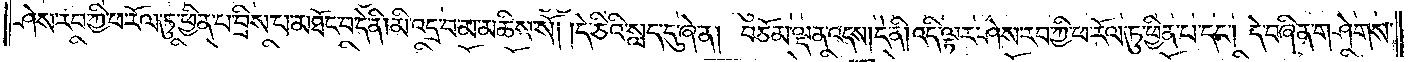ཤེས་རབ་ཀྱི་ཕ་རོལ་ཏུ་ཕྱིན་པ་བྲིས་པ་མཐོང་བ་དེ་ནི། མི་འདྲ་བ་མ་མཆིས་སོ། །དེ་ཅིའི་སླད་དུ་ཞེ་ན། བཅོམ་ལྡན་འདས། དེ་ནི། འདི་ལྟར་ཤེས་རབ་ཀྱི་ཕ་རོལ་ཏུ་ཕྱིན་པ་དང༌། དེ་བཞིན་གཤེགས་
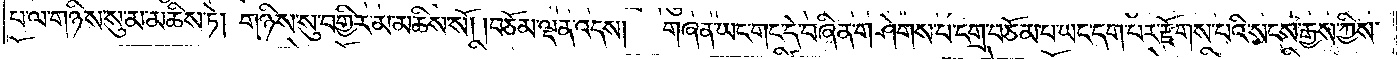པ་ལ་གཉིས་སུ་མ་མཆིས་ཏེ། གཉིས་སུ་བགྱིར་མ་མཆིས་སོ། །བཅོམ་ལྡན་འདས། གཞན་ཡང་གང་དེ་བཞིན་གཤེགས་པ་དགྲ་བཅོམ་པ་ཡང་དག་པར་རྫོགས་པའི་སངས་རྒྱས་ཀྱིས་
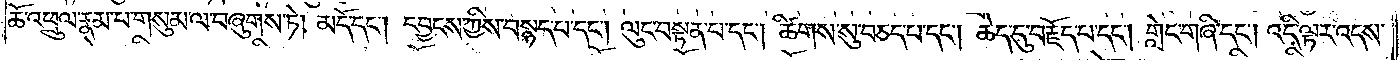ཆོ་འཕྲུལ་རྣམ་པ་གསུམ་ལ་བཞུགས་ཏེ། མདོ་དང༌། དབྱངས་ཀྱིས་བསྙད་པ་དང༌། ལུང་བསྟན་པ་དང༌། ཚིགས་སུ་བཅད་པ་དང༌། ཆེད་དུ་བརྗོད་པ་དང༌། གླེང་གཞི་དང༌། འདི་ལྟར་འདས་
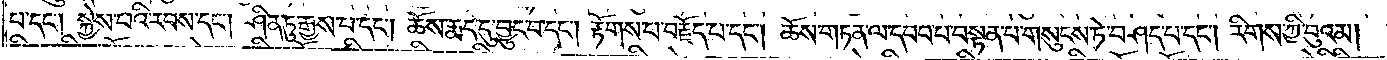པ་དང༌། སྐྱེས་པའི་རབས་དང༌། ཤིན་ཏུ་རྒྱས་པ་དང༌། ཆོས་རྨད་དུ་བྱུང་བ་དང༌། རྟོགས་པ་བརྗོད་པ་དང༌། ཆོས་གཏན་ལ་དབབ་པ་བསྟན་པ་གསུངས་ཏེ་བཤད་པ་དང༌། རིགས་ཀྱི་བུའམ།
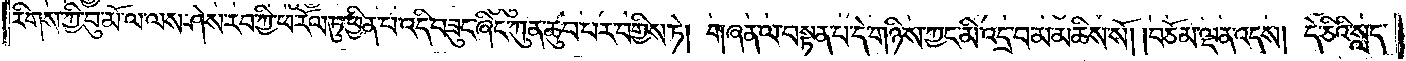རིགས་ཀྱི་བུ་མོ་ལ་ལས་ཤེས་རབ་ཀྱི་ཕ་རོལ་ཏུ་ཕྱིན་པ་འདི་བཟུང་ཞིང་ཀུན་ཆུབ་པར་བགྱིས་ཏེ། གཞན་ལ་བསྟན་པ་དེ་གཉིས་ཀྱང་མི་འདྲ་བ་མ་མཆིས་སོ། །བཅོམ་ལྡན་འདས། དེ་ཅིའི་སླད་
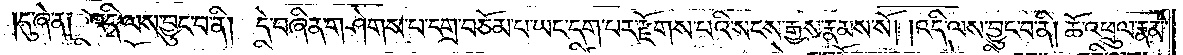དུ་ཞེ་ན། འདི་ལས་བྱུང་བ་ནི། དེ་བཞིན་གཤེགས་པ་དགྲ་བཅོམ་པ་ཡང་དག་པར་རྫོགས་པའི་སངས་རྒྱས་རྣམས་སོ། །འདི་ལས་བྱུང་བ་ནི། ཆོ་འཕྲུལ་རྣམ་
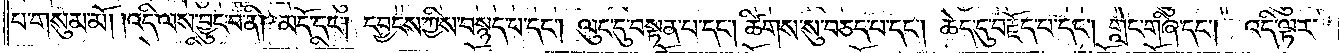པ་གསུམ་མོ། །འདི་ལས་བྱུང་བ་ནི། མདོ་དང༌། དབྱངས་ཀྱིས་བསྙད་པ་དང༌། ལུང་དུ་བསྟན་པ་དང༌། ཚིགས་སུ་བཅད་པ་དང༌། ཆེད་དུ་བརྗོད་པ་དང༌། གླེང་གཞི་དང༌། འདི་ལྟར་
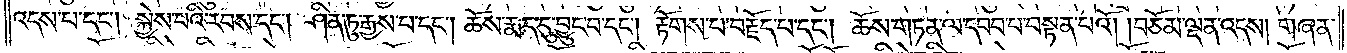འདས་པ་དང༌། སྐྱེས་པའི་རབས་དང༌། ཤིན་ཏུ་རྒྱས་པ་དང༌། ཆོས་རྨད་དུ་བྱུང་བ་དང༌། རྟོགས་པ་བརྗོད་པ་དང༌། ཆོས་གཏན་ལ་དབབ་པ་བསྟན་པའོ། །བཅོམ་ལྡན་འདས། གཞན་
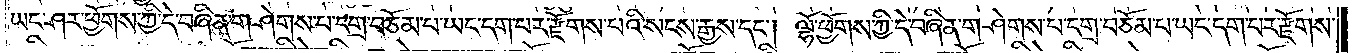ཡང་ཤར་ཕྱོགས་ཀྱི་དེ་བཞིན་གཤེགས་པ་དགྲ་བཅོམ་པ་ཡང་དག་པར་རྫོགས་པའི་སངས་རྒྱས་དང༌། ལྷོ་ཕྱོགས་ཀྱི་དེ་བཞིན་གཤེགས་པ་དགྲ་བཅོམ་པ་ཡང་དག་པར་རྫོགས་
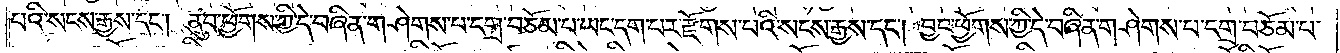པའི་སངས་རྒྱས་དང༌། ནུབ་ཕྱོགས་ཀྱི་དེ་བཞིན་གཤེགས་པ་དགྲ་བཅོམ་པ་ཡང་དག་པར་རྫོགས་པའི་སངས་རྒྱས་དང༌། བྱང་ཕྱོགས་ཀྱི་དེ་བཞིན་གཤེགས་པ་དགྲ་བཅོམ་པ་
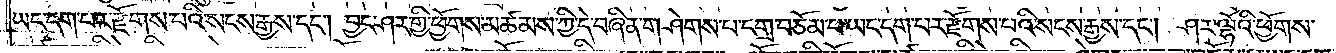ཡང་དག་པར་རྫོགས་པའི་སངས་རྒྱས་དང༌། བྱང་ཤར་གྱི་ཕྱོགས་མཚམས་ཀྱི་དེ་བཞིན་གཤེགས་པ་དགྲ་བཅོམ་པ་ཡང་དག་པར་རྫོགས་པའི་སངས་རྒྱས་དང༌། ཤར་ལྷོའི་ཕྱོགས་
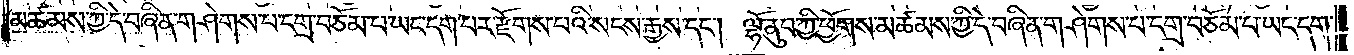མཚམས་ཀྱི་དེ་བཞིན་གཤེགས་པ་དགྲ་བཅོམ་པ་ཡང་དག་པར་རྫོགས་པའི་སངས་རྒྱས་དང༌། ལྷོ་ནུབ་ཀྱི་ཕྱོགས་མཚམས་ཀྱི་དེ་བཞིན་གཤེགས་པ་དགྲ་བཅོམ་པ་ཡང་དག་
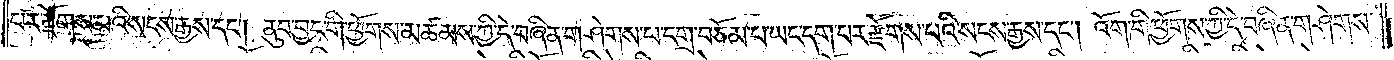པར་རྫོགས་པའི་སངས་རྒྱས་དང༌། ནུབ་བྱང་གི་ཕྱོགས་མཚམས་ཀྱི་དེ་བཞིན་གཤེགས་པ་དགྲ་བཅོམ་པ་ཡང་དག་པར་རྫོགས་པའི་སངས་རྒྱས་དང༌། འོག་གི་ཕྱོགས་ཀྱི་དེ་བཞིན་གཤེགས་
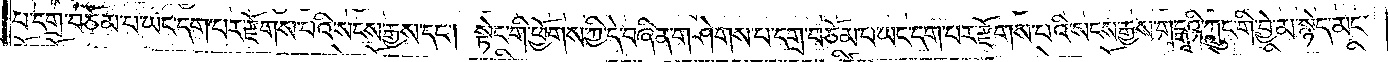པ་དགྲ་བཅོམ་པ་ཡང་དག་པར་རྫོགས་པའི་སངས་རྒྱས་དང༌། སྟེང་གི་ཕྱོགས་ཀྱི་དེ་བཞིན་གཤེགས་པ་དགྲ་བཅོམ་པ་ཡང་དག་པར་རྫོགས་པའི་སངས་རྒྱས་གངྒཱའི་ཀླུང་གི་བྱེ་མ་སྙེད་མང་
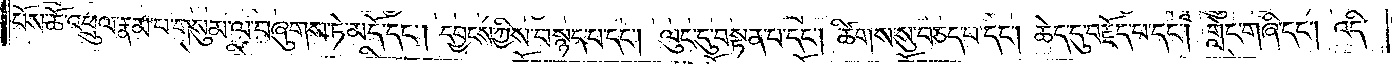པོས་ཆོ་འཕྲུལ་རྣམ་པ་གསུམ་ལ་བཞུགས་ཏེ་མདོ་དང༌། དབྱངས་ཀྱིས་བསྙད་པ་དང༌། ལུང་དུ་བསྟན་པ་དང༌། ཚིགས་སུ་བཅད་པ་དང༌། ཆེད་དུ་བརྗོད་པ་དང༌། གླེང་གཞི་དང༌། འདི་
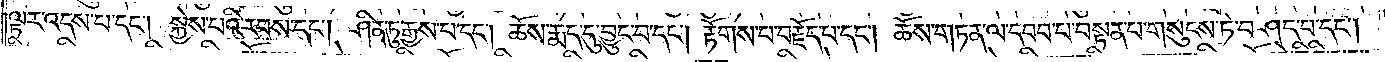ལྟར་འདས་པ་དང༌། སྐྱེས་པའི་རབས་དང༌། ཤིན་ཏུ་རྒྱས་པ་དང༌། ཆོས་རྨད་དུ་བྱུང་བ་དང༌། རྟོགས་པ་བརྗོད་པ་དང༌། ཆོས་གཏན་ལ་དབབ་པ་བསྟན་པ་གསུངས་ཏེ་བཤད་པ་དང༌།
